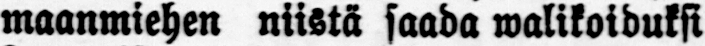maanmiehen niistä saada walikoiduksi
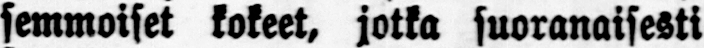semmoiset kokeet, jotka suoranaisesti
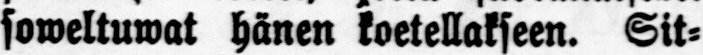soweltuwat hänen koetellakseen. Sit-
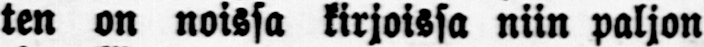ten on noissa kirjoissa niin paljon
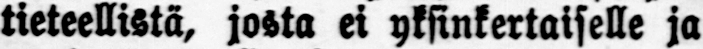tieteellistä, josta ei yksinkertaiselle ja
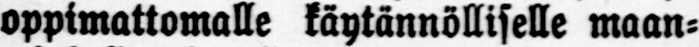oppimattomalle käytännölliselle maan-
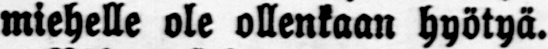miehelle ole ollenkaan hyötyä.
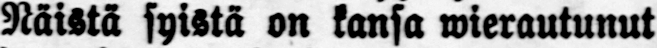Näistä syistä on kansa wierautunut
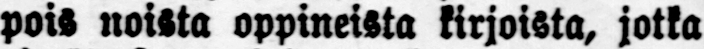pois noista oppineista kirjoista, jotka
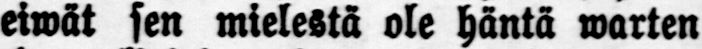eiwä t sen mielestä ole häntä warten
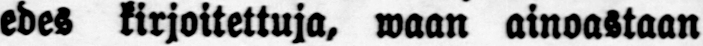edes kirjoitettuja, waan ainoastaan
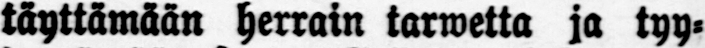täyttämään herrain tarwetta ja tyy-
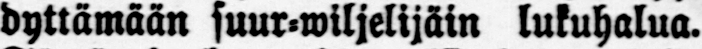dyttämään suur-wiljelijäin lukuhalua.
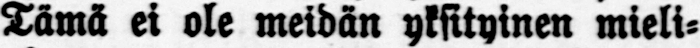Tämä ei ole meidän yksityinen mieli-
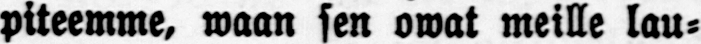piteemme, waan sen owat meille lau-
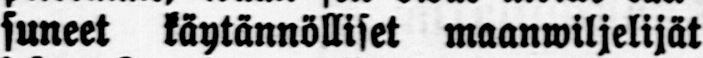suneet käytännölliset maanwiljelijät
